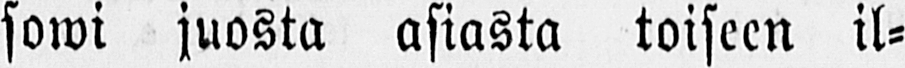sowi juosta asiasta toiseen il-
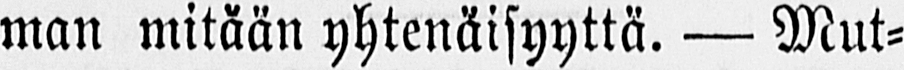man mitään yhtenäisyyttä. — Mut-
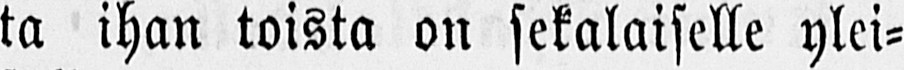ta ihan toista on sekalaiselle ylei-
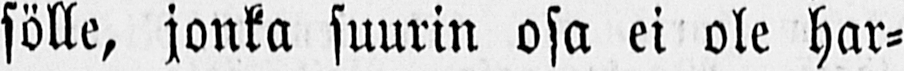sölle, jonka suurin osa ei ole har-
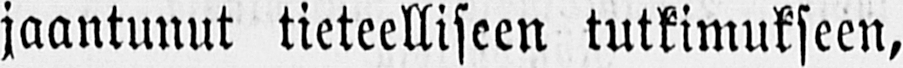jaantunut tieteelliseen tutkimukseen,
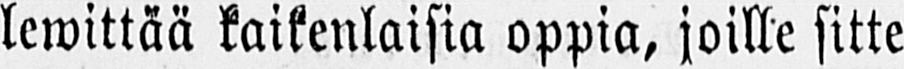lewittää kaikenlaisia oppia, joille sitte
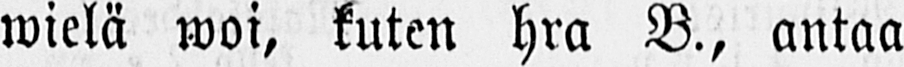wielä woi, kuten hra B., antaa
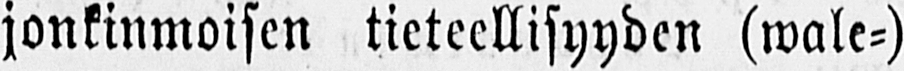jonkinmoisen tieteellisyyden (wale-)
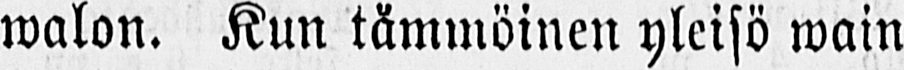walon. Kun tämmöinen yleisö wain
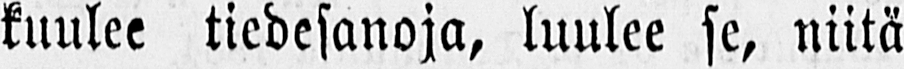kuulee tiedesanoja, luulee se, niitä
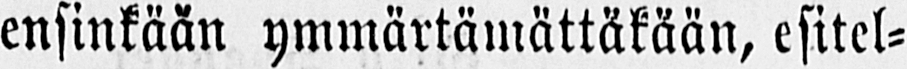ensinkään ymmärtämättäkään, esitel-
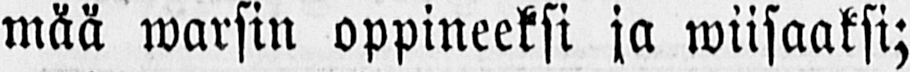mää warsin oppineeksi ja wiisaaksi;
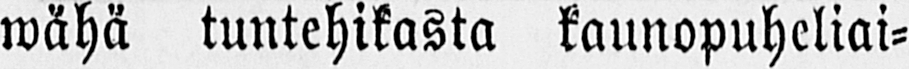wähä tuntehikasta kaunopuheliai-
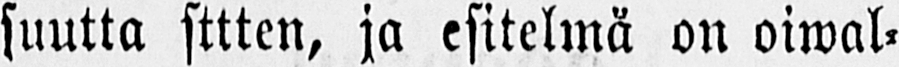suutta sitten, ja esitelmä on oiwal-
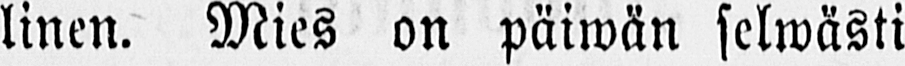linen. Mies on päiwän selwästi
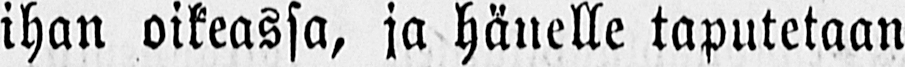ihan oikeassa, ja hänelle taputetaan
